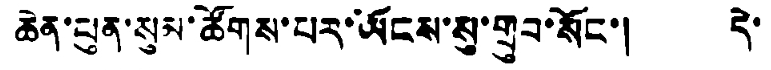ཆེན་ཕུན་སུམ་ཚོགས་པར་ཡོངས་སུ་གྲུབ་སོང་། དེ་
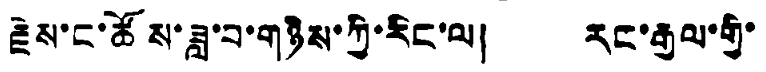རྗེས་ང་ཚོས་ཟླ་བ་གཉིས་ཀྱི་རིང་ལ། རང་རྒྱལ་གྱི་
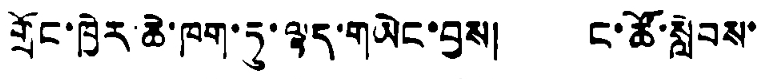གྲོང་ཁྱེར་ཆེ་ཁག་ཏུ་ལྟད་གཡེང་བྱས། ང་ཚོ་སླེབས་
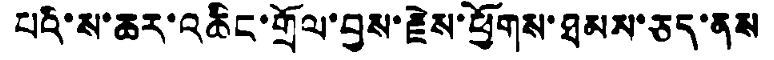པའི་ས་ཆར་འཆིང་གྲོལ་བྱས་རྗེས་ཕྱོགས་ཐམས་ཅད་ནས
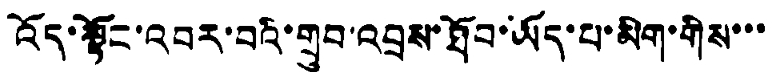འོད་སྟོང་འབར་བའི་གྲུབ་འབྲས་ཐོབ་ཡོད་པ་མིག་གིས་་་
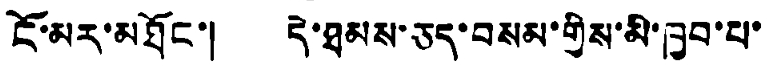ངོ་མར་མཐོང་། དེ་ཐམས་ཅད་བསམ་གྱིས་མི་ཁྱབ་པ་
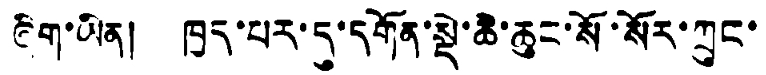ཞིག་ཡིན། ཁྱད་པར་དུ་དགོན་སྡེ་ཆེ་ཆུང་སོ་སོར་ཀྲུང་
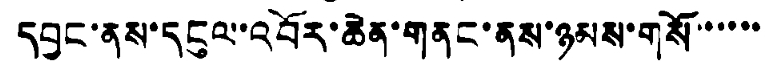དབྱང་ནས་དངུལ་འབོར་ཆེན་གནང་ནས་ཉམས་གསོ་་་་་་
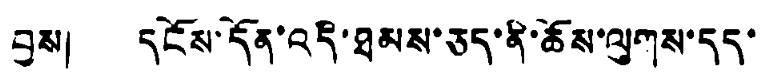བྱས། དངོས་དོན་འདི་ཐམས་ཅད་ནི་ཆོས་ལུགས་དད་
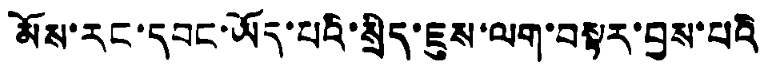མོས་རང་དབང་ཡོད་པའི་སྲིད་ཇུས་ལག་བསྟར་བྱས་པའི
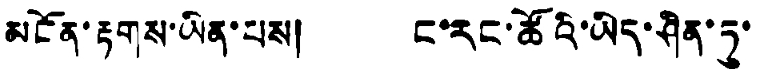མངོན་རྟགས་ཡིན་པས། ང་རང་ཚོའི་ཡིད་ཤིན་ཏུ་
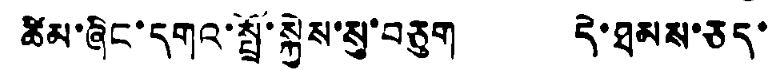ཚིམ་ཞིང་དགའ་སྤྲོ་སྐྱེས་སུ་བཅུག དེ་ཐམས་ཅད་
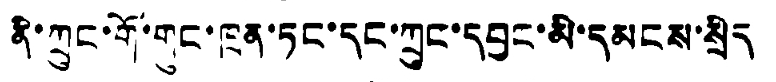ནི་ཀྲུང་གོ་གུང་ཁྲན་ཏང་དང་ཀྲུང་དབྱང་མི་དམངས་སྲིད
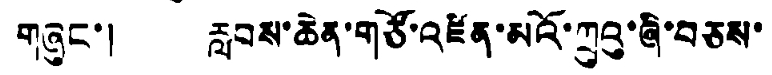གཞུང་། རླབས་ཆེན་གཙོ་འཛིན་མའོ་ཀྲུའུ་ཞི་བཅས་
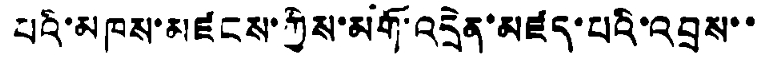པའི་མཁས་མཛངས་ཀྱིས་མགོ་འདྲེན་མཛད་པའི་འབྲས་་
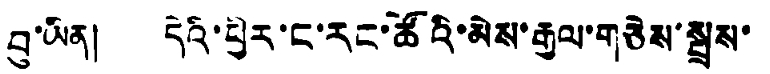བུ་ཡིན། དེའི་ཕྱིར་ང་རང་ཚོའི་མེས་རྒྱལ་གཅེས་སྤྲས་
